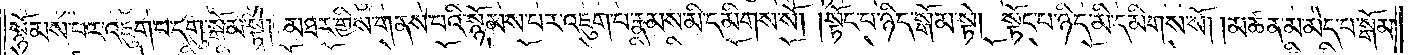སྙོམས་པར་འཇུག་པ་དགུ་སྒོམ་སྟེ། མཐར་གྱིས་གནས་པའི་སྙོམས་པར་འཇུག་པ་རྣམས་མི་དམིགས་སོ། །སྟོང་པ་ཉིད་སྒོམ་སྟེ། སྟོང་པ་ཉིད་མི་དམིགས་སོ། །མཚན་མ་མེད་པ་སྒོམ་
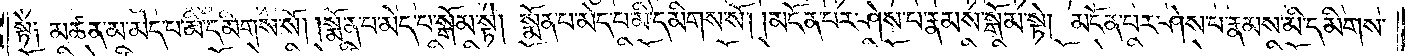སྟེ༑ མཚན་མ་མེད་པ་མི་དམིགས་སོ། །སྨོན་པ་མེད་པ་སྒོམ་སྟེ། སྨོན་པ་མེད་པ་མི་དམིགས་སོ། །མངོན་པར་ཤེས་པ་རྣམས་སྒོམ་སྟེ། མངོན་པར་ཤེས་པ་རྣམས་མི་དམིགས་
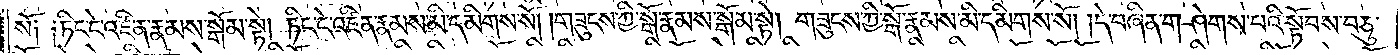སོ༑ ༑ཏིང་ངེ་འཛིན་རྣམས་སྒོམ་སྟེ། ཏིང་ངེ་འཛིན་རྣམས་མི་དམིགས་སོ། །གཟུངས་ཀྱི་སྒོ་རྣམས་སྒོམ་སྟེ། གཟུངས་ཀྱི་སྒོ་རྣམས་མི་དམིགས་སོ། །དེ་བཞིན་གཤེགས་པའི་སྟོབས་བཅུ་
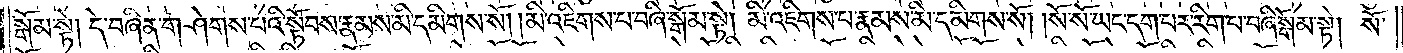སྒོམ་སྟེ། དེ་བཞིན་གཤེགས་པའི་སྟོབས་རྣམས་མི་དམིགས་སོ། །མི་འཇིགས་པ་བཞི་སྒོམ་སྟེ། མི་འཇིགས་པ་རྣམས་མི་དམིགས་སོ། །སོ་སོ་ཡང་དག་པར་རིག་པ་བཞི་སྒོམ་སྟེ། སོ་
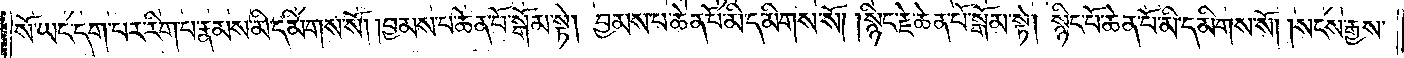སོ་ཡང་དག་པར་རིག་པ་རྣམས་མི་དམིགས་སོ། །བྱམས་པ་ཆེན་པོ་སྒོམ་སྟེ། བྱམས་པ་ཆེན་པོ་མི་དམིགས་སོ། །སྙིང་རྗེ་ཆེན་པོ་སྒོམ་སྟེ། སྙིང་པོ་ཆེན་པོ་མི་དམིགས་སོ། །སངས་རྒྱས་
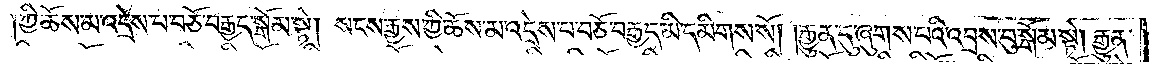ཀྱི་ཆོས་མ་འདྲེས་པ་བཅོ་བརྒྱད་སྒོམ་སྟེ། སངས་རྒྱས་ཀྱི་ཆོས་མ་འདྲེས་པ་བཅོ་བརྒྱད་མི་དམིགས་སོ། །རྒྱུན་དུ་ཞུགས་པའི་འབྲས་བུ་སྒོམ་སྟེ། རྒྱུན་
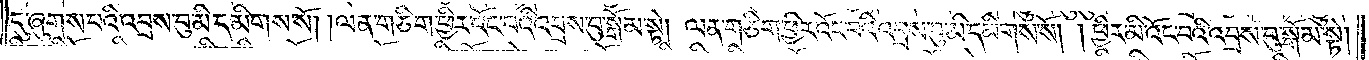དུ་ཞུགས་པའི་འབྲས་བུ་མི་དམིགས་སོ། །ལན་གཅིག་ཕྱིར་འོང་བའི་འབྲས་བུ་སྒོམ་སྟེ། ལན་གཅིག་ཕྱིར་འོང་བའི་འབྲས་བུ་མི་དམིགས་སོ། །ཕྱིར་མི་འོང་བའི་འབྲས་བུ་སྒོམ་སྟེ།
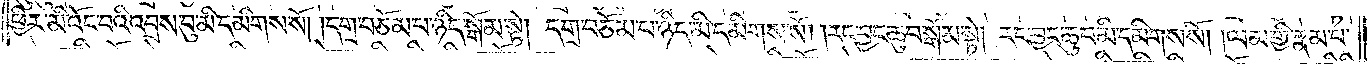ཕྱིར་མི་འོང་བའི་འབྲས་བུ་མི་དམིགས་སོ། །དགྲ་བཅོམ་པ་ཉིད་སྒོམ་སྟེ། དགྲ་བཅོམ་པ་ཉིད་མི་དམིགས་སོ། །རང་བྱང་ཆུབ་སྒོམ་སྟེ། རང་བྱང་ཆུབ་མི་དམིགས་སོ། །ལམ་གྱི་རྣམ་པ་
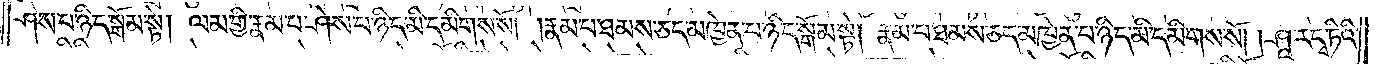ཤེས་པ་ཉིད་སྒོམ་སྟེ། ལམ་གྱི་རྣམ་པ་ཤེས་པ་ཉིད་མི་དམིགས་སོ། །རྣམ་པ་ཐམས་ཅད་མཁྱེན་པ་ཉིད་སྒོམ་སྟེ། རྣམ་པ་ཐམས་ཅད་མཁྱེན་པ་ཉིད་མི་དམིགས་སོ། །ཤཱ་རདྭ་ཏིའི་
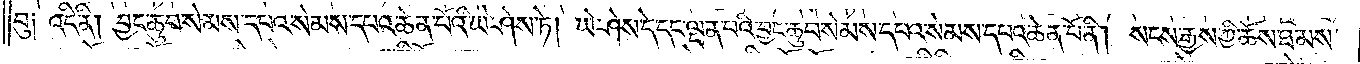བུ༑ འདི་ནི། བྱང་ཆུབ་སེམས་དཔའ་སེམས་དཔའ་ཆེན་པོའི་ཡེ་ཤེས་ཏེ། ཡེ་ཤེས་དེ་དང་ལྡན་པའི་བྱང་ཆུབ་སེམས་དཔའ་སེམས་དཔའ་ཆེན་པོ་ནི། སངས་རྒྱས་ཀྱི་ཆོས་ཐམས་
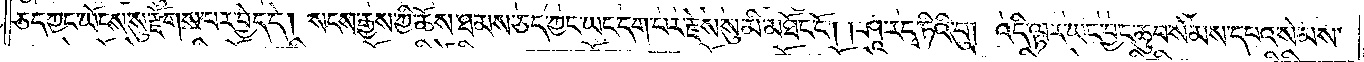ཅད་ཀྱང་ཡོངས་སུ་རྫོགས་པར་བྱེད་དེ། སངས་རྒྱས་ཀྱི་ཆོས་ཐམས་ཅད་ཀྱང་ཡང་དག་པར་རྗེས་སུ་མི་མཐོང་ངོ༌། །ཤཱ་རདྭ་ཏིའི་བུ། འདི་ལྟར་ཡང་བྱང་ཆུབ་སེམས་དཔའ་སེམས་
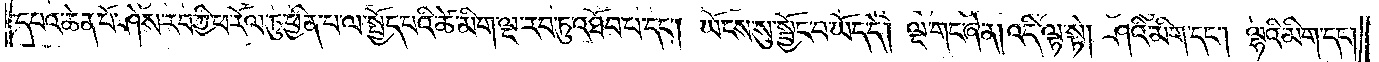དཔའ་ཆེན་པོ་ཤེས་རབ་ཀྱི་ཕ་རོལ་ཏུ་ཕྱིན་པ་ལ་སྤྱོད་པའི་ཚེ་མིག་ལྔ་རབ་ཏུ་འཐོབ་པ་དང༌། ཡོངས་སུ་སྦྱོང་བ་ཡོད་དེ། ལྔ་གང་ཞེ་ན། འདི་ལྟ་སྟེ། ཤའི་མིག་དང༌། ལྷའི་མིག་དང༌།
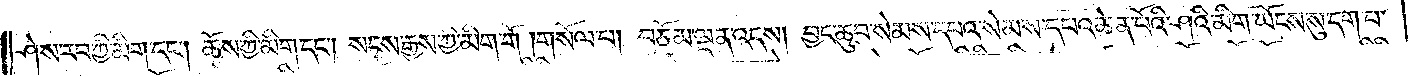ཤེས་རབ་ཀྱི་མིག་དང༌། ཆོས་ཀྱི་མིག་དང༌། སངས་རྒྱས་ཀྱི་མིག་གོ །གསོལ་པ། བཅོམ་ལྡན་འདས། བྱང་ཆུབ་སེམས་དཔའ་སེམས་དཔའ་ཆེན་པོའི་ཤའི་མིག་ཡོངས་སུ་དག་པ་
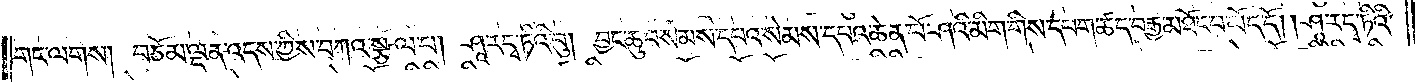གང་ལགས། བཅོམ་ལྡན་འདས་ཀྱིས་བཀའ་སྩལ་པ། ཤཱ་རདྭ་ཏིའི་བུ། བྱང་ཆུབ་སེམས་དཔའ་སེམས་དཔའ་ཆེན་པོ་ཤའི་མིག་གིས་དཔག་ཚད་བརྒྱ་མཐོང་བ་ཡོད་དོ། །ཤཱ་རདྭ་ཏིའི་
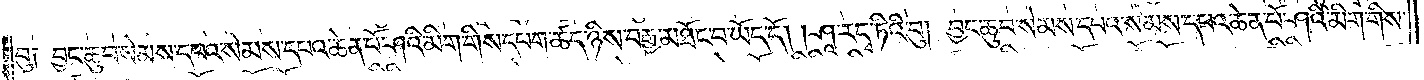བུ༑ བྱང་ཆུབ་སེམས་དཔའ་སེམས་དཔའ་ཆེན་པོ་ཤའི་མིག་གིས་དཔག་ཚད་ཉིས་བརྒྱ་མཐོང་བ་ཡོད་དོ། །ཤཱ་རདྭ་ཏིའི་བུ། བྱང་ཆུབ་སེམས་དཔའ་སེམས་དཔའ་ཆེན་པོ་ཤའི་མིག་གིས་
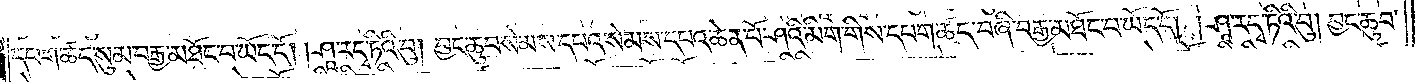དཔག་ཚད་སུམ་བརྒྱ་མཐོང་བ་ཡོད་དོ། །ཤཱ་རདྭ་ཏིའི་བུ། བྱང་ཆུབ་སེམས་དཔའ་སེམས་དཔའ་ཆེན་པོ་ཤའི་མིག་གིས་དཔག་ཚད་བཞི་བརྒྱ་མཐོང་བ་ཡོད་དོ། །ཤཱ་ར་དྭ་ཏིའི་བུ། བྱང་ཆུབ་
